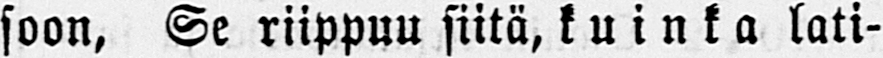soon, Se riippuu siitä, kuinka lati-
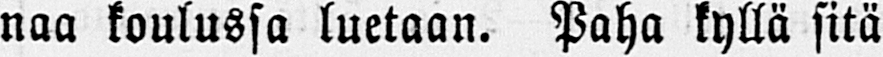naa koulussa luetaan. Paha kyllä sitä
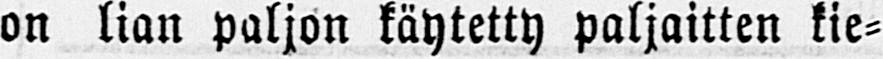on lian paljon käytetty paljaitten kie-
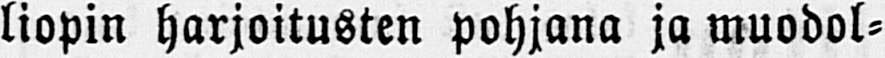liopin harjoitusten pohjana ja muodol-
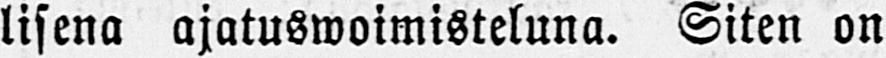lisena ajatuswoimisteluna. Siten on
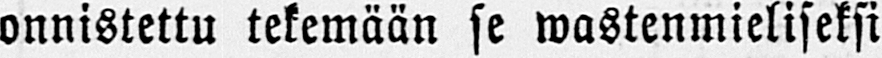onnistettu tekemään se wastenmieliseksi
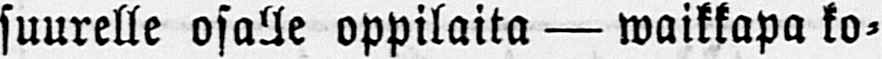suurelle osalle oppilaita — waikkapa ko-
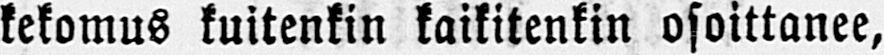kekomus kuitenkin kaikitenkin osoittanee,
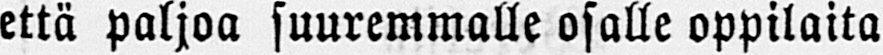että paljoa suuremmalle osalle oppilaita
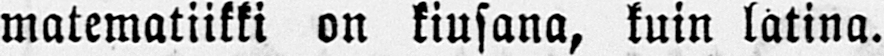matematiikki on kiusana, kuin latina.
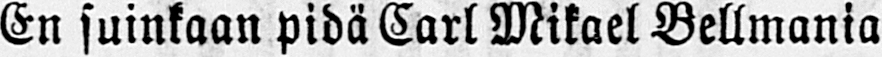En suinkaan pidä Carl Mikael Bellmania
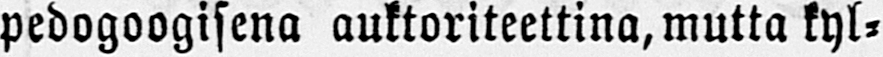pedogoogisena auktoriteettina, mutta kyl-
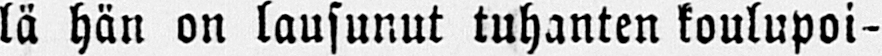lä hän on lausunut tuhanten koulupoi-
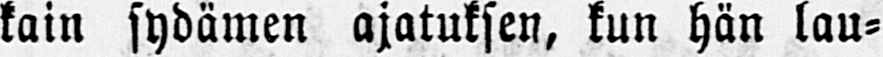kain sydämen ajatuksen, kun hän lau-
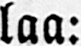laa:
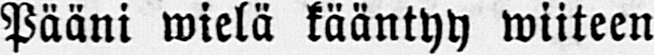Pääni wielä kääntyy tunteen
